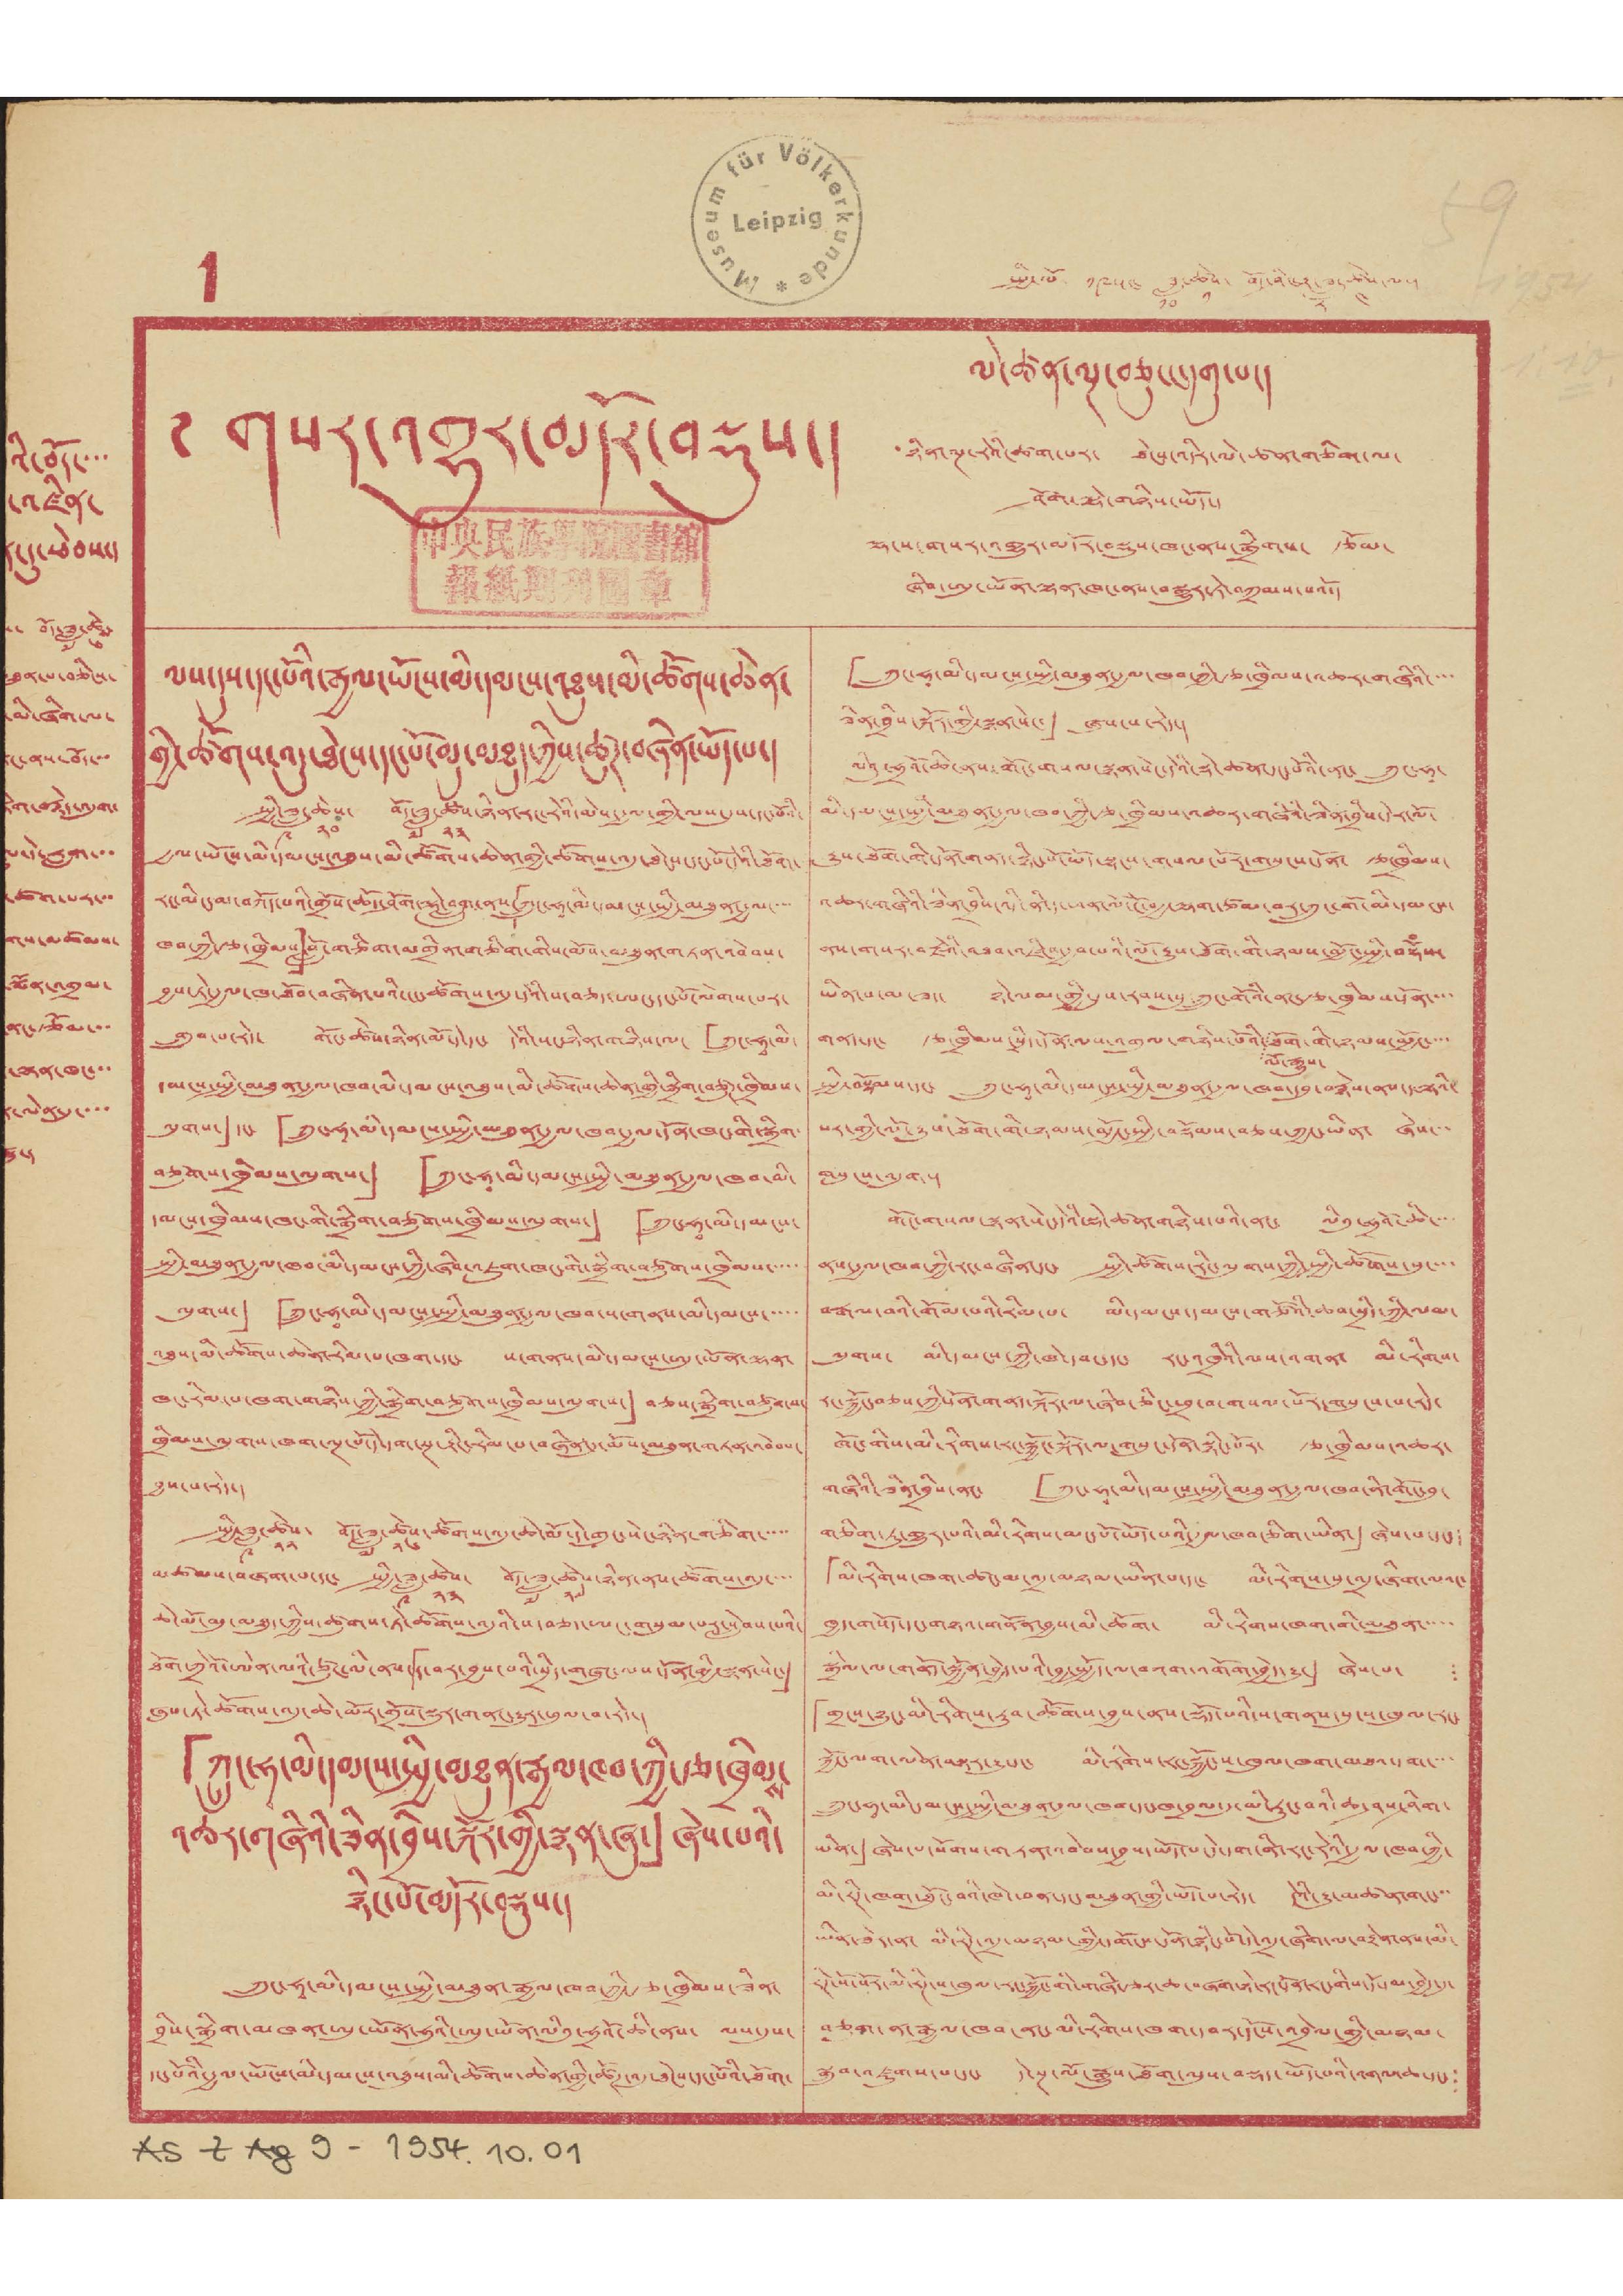1 སྤྱི་ལོ་ ༡༩༥༤ ཟླ་
༡༠
ཚེས་
༡
བོད་ཤིང་རྟ་ཟླ་
༨
ཚེས་
༤
ལ།
༄ གསར་འགྱུར་མདོར་བསྡུས་།
ལེ་ཚན་ལྔ་བཅུ་ང་དགུ་པ་།
ཉིན་ལྔ་རེའི་ཚག་པར་ ཐེངས་འདིར་ལེ་ཚན་གཅིག་ལ་
ཤོག་ལྷེ་གཉིས་ཡོད་།
ལྷ་ས་གསར་འགྱུར་མདོར་བསྡུས་ཁང་ནས་སྒྲིགས་ རྩོམ་
ཞིབ་ཨུ་ཡོན་ལྷན་ཁང་ནས་བསྒྱུར་ཏེ་བཀྲམས་པའོ་།
འི་བོད་་་
འཛིན་
དུ་ཕེབས་
བོད་ཟླ་ ༦ ཚེས་ ༦
ཐུན་པ་བཅིངས་
མི་ཞིག་ལ་
ནས་བོད་་
བརྙེད་ལུག་
དེ་རླག་་
ཚག་པར་་
མཚམས་
སྨོན་འགྲམ་
ནང་ཙོམ་བ་
ལྷན་ཁང་་
ལེན་དུ་་་
ར་
ལས་དུས་དང་པོའི་རྒྱལ་ཡོངས་མི་དམངས་འཐུས་མི་ཚོགས་ཆེན་
གྱི་ཚོགས་འདུ་ཐེངས་དང་པོ་མུ་མཐུད་ཀྱིས་ཚུཊ་བཞིན་ཡོད་པ་།
སྤྱི་ཟླ་
༩
ཚེས་
༢༠
བོད་ཟླ་
༧
ཚེས་
༢༣
ཉིན་རང་རེའི་མེས་རྒྱལ་གྱི་ལས་དུས་དང་པོའི་
རྒྱལ་ཡོངས་མི་དམངས་འཐུས་མི་ཚོགས་ཆེན་གྱི་ཚོགས་འདུ་ཐེངས་དང་པོ་དེའི་ཐོག་
རང་མིང་མ་བཀོད་པའི་གྲོས་ཆོད་ཤོག་ལྷེ་བླུག་ནས་「ཀྲུང་ཧྭ་མི་དམངས་སྤྱི་མཐུན་རྒྱལ་་་་
ཁབ་ཀྱི་རྩ་ཁྲིམས་」བློ་གཅིག་མགྲིན་གཅིག་གིས་མོས་མཐུན་གཏན་འབེབས་
བྱས་ཏེ་རྒྱལ་ཁ་ཐོབ་བཞིན་པའི་ངང་ཚོགས་འདུ་འདིའི་ད་བཅད་ཨང་དང་པོ་ལེགས་པར་
གྲུབ་པ་རེད་ གོང་ཚེས་ཉིན་མོ་དེ་དང་ དེའི་སང་ཉིན་གཉིས་ལ་「ཀྲུང་ཧྭ་མི་
དམངས་སྤྱི་མཐུན་རྒྱལ་ཁབ་མི་དམངས་འཐུས་མི་ཚོགས་ཆེན་གྱི་སྒྲིག་བཙུཊ་ཁྲིམས་
ལུགས་」དང་ 「ཀྲུང་ཧྭ་མི་དམངས་སྤྱི་མཐུན་རྒྱལ་ཁབ་རྒྱལ་དོན་ཁང་གི་སྒྲིག་
བཙུགས་ཁྲིམས་ལུགས་」 「ཀྲུང་ཧྭ་མི་དམངས་སྤྱི་མཐུན་རྒྱལ་ཁབ་མི་
དམངས་ཁྲིམས་ཁང་གི་སྒྲིག་བཙུགས་ཁྲིམས་ལུགས་」 「ཀྲུང་ཧྭ་མི་དམངས་
སྤྱི་མཐུན་རྒྱལ་ཁབ་མི་དམངས་ཀྱི་ཞིབ་འཇུག་ཁང་གི་སྒྲིག་བཙུགས་ཁྲིམས་་་་་
ལུགས་」 「ཀྲུང་ཧྭ་མི་དམངས་སྤྱི་མཐུན་རྒྱལ་ཁབ་ས་གནས་མི་དམངས་་་་་
འཐུས་མི་ཚོགས་ཆེན་རིམ་པ་ཁག་དང་ ས་གནས་མི་དམངས་ཨུ་ཡོན་ལྷན་
ཁང་རིམ་པ་ཁག་གཉིས་ཀྱི་སྒྲིག་བཙུགས་ཁྲིམས་ལུགས་」བཅས་སྒྲིག་བཙུགས་
ཁྲིམས་ལུགས་ཁག་ལྔ་པོ་དེ་དག་སྔ་རྟིང་རིམ་པ་བཞིན་དུ་མོས་མཐུན་གཏན་འབེབས་
བྱས་པ་རེད་།
སྤྱི་ཟླ་
༩
ཚེས་
༢༢
བོད་ཟླ་
༧
ཚེས་
༢༦
ཚོགས་འདུ་ཆེ་མོ་དེ་གུང་སེང་ཉིན་གཅིག་་་་་
མཚམས་བཞག་པ་དང་ སྤྱི་ཟླ་
༩
ཚེས་
༢༣
བོད་ཟླ་
༧
ཚེས་
༢༧
ཉིན་ནས་ཚོགས་འདུ་་་་
ཆེ་མོ་མུ་མཐུད་ཀྱིས་ཚུགས་ཏེ་ཚོགས་འདུའི་ས་བཅད་ཨང་གསུམ་པར་སླེབས་པའི་
ཐོག་ཀྲེའོ་ཨེན་ལའི་ཙུང་ལི་ནས་「ད་བར་བྱས་པའི་སྲིད་གཞུང་ལས་དོན་གྱི་སྙན་སེང་」
ཞུས་ཏེ་ཚོགས་འདུ་ཆེ་མོར་གྲོས་སྡུར་གནང་རྒྱུར་ཕུལ་བ་རེད་།
「ཀྲུང་ཧྭ་མི་དམངས་སྤྱི་མཐུན་རྒྱལ་ཁབ་ཀྱི་རྩ་ཁྲིམས་
འཆར་གཞིའི་ཟིན་བྲིས་སྐོར་གྱི་སྙན་ཞུ་」ཞེས་པའི་
སྙིང་པོ་མདོར་བསྡུས་།
ཀྲུང་ཧྭ་མི་དམངས་སྤྱི་མཐུན་རྒྱལ་ཁབ་ཀྱི་རྩ་ཁྲིམས་ཟིན་
བྲིས་སྒྲིག་མཁན་ཨུ་ཡོན་ཧུའི་ཨུ་ཡོན་ལིའུ་ཧྲའོ་ཆི་ནས་ ལས་དུས་
དང་པོའི་རྒྱལ་ཡོངས་མི་དམངས་འཐུས་མི་ཚོགས་ཆེན་གྱི་ཚོཊ་འདུ་ཐེངས་དང་པོའི་ཐོག་
「ཀྲུང་ཧྭ་མི་དམངས་སྤྱི་མཐུན་རྒྱལ་ཁབ་ཀྱི་རྩ་ཁྲིམས་འཆར་གཞིའི་་་་
ཟིན་བྲིས་སྐོར་གྱི་སྙན་སེང་」 ཞུས་པ་རེད་།
ལིའུ་ཧྲའོ་ཆི་ནས་གོང་གསལ་སྙན་སེང་དེའི་སྡེ་ཚན་དང་པོའི་ནང་ ཀྲུང་ཧྭ་
མི་དམངས་སྤྱི་མཐུན་རྒྱལ་ཁབ་ཀྱི་རྩ་ཁྲིམས་འཆར་གཞིའི་ཟིན་བྲིས་དེར་ལོ་
རྒྱུས་ཐོག་གི་དོན་གནད་སྙིང་པོ་ཡོད་སྟངས་གསལ་པོར་གསུངས་དོན་ རྩ་ཁྲིམས་
འཆར་གཞིའི་ཟིན་བྲིས་འདི་ནི་དང་ཕན་ལོ་ངོ་བརྒྱ་ལྷག་ཙམ་བར་ཀྲུང་གོ་མི་དམངས་
ནས་གསར་བརྗེའི་འཐབ་འཛིང་བྱས་པའི་ལོ་རྒྱུས་ཐོག་གི་ཉམས་མྱོང་སྤྱི་བསྡོཾས་
ཡིན་པ་མ་ཟད་ ཉེ་ལམ་གྱི་དུས་རབས་སུ་ཀྲུང་གོའི་ནང་རྩ་ཁྲིམས་དོན་
གནད་དང་ རྩ་ཁྲིམས་སྲིད་དོན་ལས་འགུལ་གཉིས་པོའི་
ལོ་རྒྱུས་
ཐོག་གི་ཉམས་མྱོང་་་་
སྤྱི་བསྡོམས་དང་ ཀྲུང་ཧྭ་མི་དམངས་སྤྱི་མཐུན་རྒྱལ་ཁབ་དབུ་བརྙེས་ནས་ད་ལྟའི་
པར་གྱི་ལོ་རྒྱུས་ཐོག་གི་ཉམས་མྱོང་སྤྱི་བསྡོམས་བཅས་ཀྱང་ཡིན་ ཞེས་་་
གསུངས་འདུག་།
གོང་གསལ་སྙན་སེང་དེའི་སྡེ་ཚན་གཉིས་པའི་ནང་ ལིའུ་ཧྲའོ་ཆི་་་
ནས་རྒྱལ་ཁབ་ཀྱི་རང་བཞིན་དང་ སྤྱི་ཚོགས་རིང་ལུགས་ཀྱི་སྤྱི་ཚོགས་སུ་་་་
བརྒལ་བའི་གོམ་པའི་རིམ་པ་ མི་དམངས་དམངས་གཙོའི་ཆབ་སྲིད་ཀྱི་ལམ་
ལུགས་ མི་དམངས་ཀྱི་ཁེ་དབང་དང་ རང་འཁྲིའི་ལས་འགན་ མི་རིགས་
རང་སྐྱོང་བཅས་ཀྱི་དོན་གནད་སྐོར་ལ་ཞིབ་ཅིང་ཕྲ་བ་གསལ་པོར་གསུངས་པ་རེད་
ཁོང་གིས་མི་རིགས་རང་སྐྱོང་སྐོར་ལ་གསུང་དོན་སྙིང་པོར་ རྩ་ཁྲིམས་འཆར་
གཞིའི་ཟིན་བྲིས་ནང་ 「ཀྲུང་ཧྭ་མི་དམངས་སྤྱི་མཐུན་རྒྱལ་ཁབ་ནི་གོང་བུ་
གཅིག་ཏུ་གྱུར་པའི་མི་རིགས་མང་པོ་ཡོད་པའི་རྒྱལ་ཁབ་ཅིག་ཡིན་」ཞེས་པ་དང་།
「མི་རིགས་ཁག་ཚང་མ་འདྲ་མཉམ་ཡིན་པ་དང་ མི་རིགས་སུ་འདྲ་ཞིག་ལའང་
ཁྱད་གསོད་དང་གཉའ་གནོན་བྱས་མི་ཆོག་ མི་རིགས་ཁག་གི་མཐུན་་་་་
སྒྲིལ་ལ་གནོད་སྐྱོན་བྱེད་པའི་བྱ་སྤྱོད་ལ་བཀག་འགོག་བྱེད་རྒྱུ་」ཞེས་པ་
「གྲངས་ཉུང་མི་རིགས་རུབ་ཚོགས་བྱས་ནས་སྡོད་སའི་ས་གནས་སུ་ས་ཁུལ་རང་
སྐྱོང་ལག་ལེན་བསྟར་རྒྱུ་དང་ མི་རིགས་རང་སྐྱོང་ས་ཁུལ་ཁག་མཐའ་དག་་་་
ཀྲུང་ཧྭ་མི་དམངས་སྤྱི་མཐུན་རྒྱལ་ཁབ་དང་ཁ་བྲལ་དུ་མི་རུང་བའི་ཆ་ཤས་ཤིག་
ཡིན་」ཞེས་པ་སོགས་གཏན་འབེབས་བྱས་ཡོད་པ་དེ་དག་ནི་རང་རེའི་རྒྱལ་ཁབ་ཀྱི་
མི་རིཊ་ཁག་ཐོུང་བའི་ཁེ་ཕན་དང་མཐུན་གྱི་ཡོད་པ་རེད་ དེའི་རྒྱུ་མཚན་གང་་་
ཡིན་ཟེར་ན་ མི་རིཊ་འདྲ་མཉམ་གྱི་དགོངས་དོན་སྙིང་པོ་དེ་འདྲ་ཞིག་ལ་བརྟེན་ནས་མི་
རིཊ་སོ་སོར་མི་རིཊ་ས་ཁུལ་རང་སྐྱོང་གི་གཞི་རྩར་ཆ་བཞག་སྟེ་ནང་དོན་རང་གིས་དོ་དམ་བྱེད་དུ་
བཅུག་ན་རྒྱལ་ཁབ་ནང་མི་རིགས་ཁག་དབར་དངོས་འབྲེལ་གྱི་མཉམ་
སྒྲུབ་འཛུགས་པ་དང་ དེ་སྔ་ལོ་རྒྱུས་ཐོག་ལུས་བསྡད་ཡོད་པའི་འགལ་ཆ་དང་
